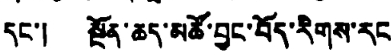དང་། སྔོན་ཆད་མཚོ་བྱང་བོད་རིགས་རང
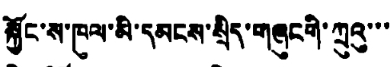སྐྱོང་ས་ཁུལ་མི་དམངས་སྲིད་གཞུངགི་ཀྲུའུ་་་
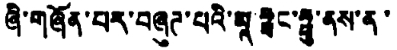ཞི་གཞོན་པར་བཞུཊ་པའི་མཱ་ཧྥང་ཧྥུ་ནས་ན་
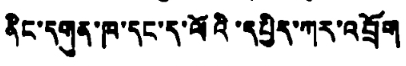ནིང་དགུན་ཁ་དང་ད་ལོའི་དཔྱིད་ཀར་འབྲོག
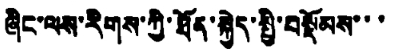ཞིང་ལས་རིགས་ཀྱི་ཐོན་སྐྱེད་སྤྱི་བསྡོམས་་་
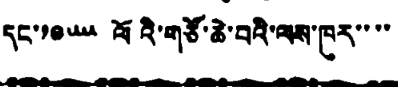དང་༡༩༥༥ ལོའི་གཙོ་ཆེ་བའི་ལས་ཁུར་་་་
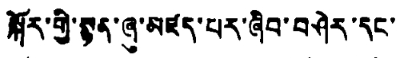སྐོར་གྱི་སྙན་ཞུ་མཛད་པར་ཞིབ་བཤེར་དང་
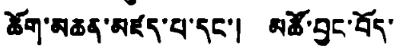ཆོག་མཆན་མཛད་པ་དང་། མཚོ་བྱང་བོད་
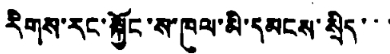རིགས་རང་སྐྱོང་ས་ཁུལ་མི་དམངས་སྲིད་་་
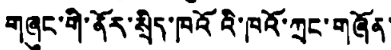གཞུང་གི་ནོར་སྲིད་ཁའོའི་ཁའོ་ཀྲང་གཞོན་
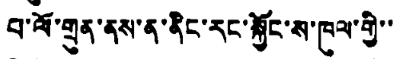པ་ལོ་གྲུན་ནས་ན་ནིང་རང་སྐྱོང་ས་ཁུལ་གྱི་་
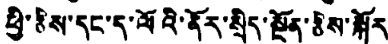ཕྱི་རྩིས་དང་ད་ལོའི་ནོར་སྲིད་སྔོན་རྩིས་སྐོར
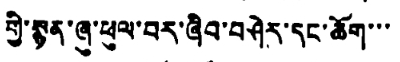གྱི་སྙན་ཞུ་ཕུལ་བར་ཞིབ་བཤེར་དང་ཆོག་་་
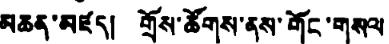མཆན་མཛད། གྲོས་ཚོགས་ནས་གོང་གསལ
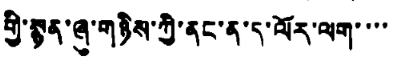གྱི་སྙན་ཞུ་གཉིས་ཀྱི་ནང་ན་ད་ལོར་ལག་་་་
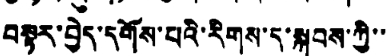བསྟར་བྱེད་དགོས་པའི་རིགས་ད་སྐབས་ཀྱི་་
